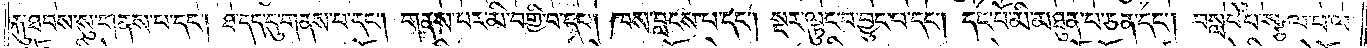རྐུ་ཐབས་སུ་གནས་པ་དང༌། ཐ་དད་དུ་གནས་པ་དང༌། གནས་པར་མི་བགྱི་བ་དང༌། ཁས་བླངས་པ་དང༌། སྔར་ལྟུང་བ་བྱུང་བ་དང༌། དང་པོ་མི་མཐུན་པ་ཅན་དང༌། བསླབ་པ་སྩལ་པ་ལ་
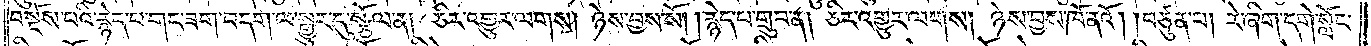བསྔོས་པའི་རྙེད་པ་གང་ཟག་བདག་ལ་སྒྱུར་དུ་སྩོལ་ན། ཅིར་འགྱུར་ལགས། ཉེས་བྱས་སོ། །རྙེད་པ་གྲུབ་ན། ཅིར་འགྱུར་ལགས། ཉེས་བྱས་ཁོ་ནའོ། །བཙུན་པ། རེ་ཞིག་དགེ་སློང་
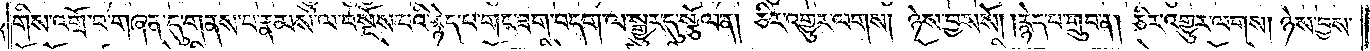གིས་འགྲོ་བ་གཞན་དུ་གནས་པ་རྣམས་ལ་བསྔོས་པའི་རྙེད་པ་གང་ཟག་བདག་ལ་སྒྱུར་དུ་སྩོལ་ན། ཅིར་འགྱུར་ལགས། ཉེས་བྱས་སོ། །རྙེད་པ་གྲུབ་ན། ཅིར་འགྱུར་ལགས། ཉེས་བྱས་
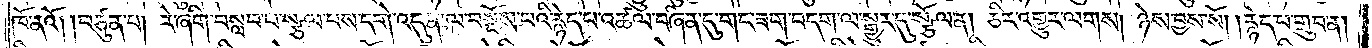ཁོ་ནའོ། །བཙུན་པ། རེ་ཞིག་བསླབ་པ་སྩལ་པས་དགེ་འདུན་ལ་བསྔོས་པའི་རྙེད་པ་འཚལ་བཞིན་དུ་གང་ཟག་བདག་ལ་སྒྱུར་དུ་སྩོལ་ན། ཅིར་འགྱུར་ལགས། ཉེས་བྱས་སོ། །རྙེད་པ་གྲུབ་ན།
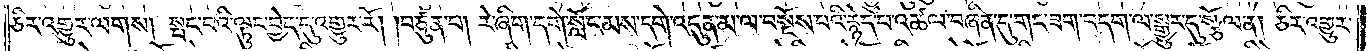ཅིར་འགྱུར་ལགས། སྤང་བའི་ལྟུང་བྱེད་དུ་འགྱུར་རོ། །བཙུན་པ། རེ་ཞིག་དགེ་སློང་མས་དགེ་འདུན་མ་ལ་བསྔོས་པའི་རྙེད་པ་འཚལ་བཞིན་དུ་གང་ཟག་བདག་ལ་སྒྱུར་དུ་སྩོལ་ན། ཅིར་འགྱུར་
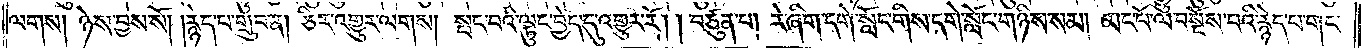ལགས། ཉེས་བྱས་སོ། །རྙེད་པ་གྲུབ་ན། ཅིར་འགྱུར་ལགས། སྤང་བའི་ལྟུང་བྱེད་དུ་འགྱུར་རོ། །བཙུན་པ། རེ་ཞིག་དགེ་སློང་གིས་དགེ་སློང་གཉིས་སམ། མང་པོ་ལ་བསྔོས་པའི་རྙེད་པ་གང་
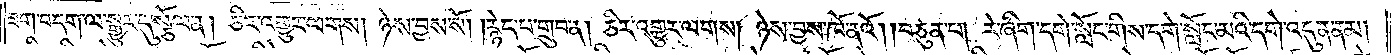ཟག་བདག་ལ་སྒྱུར་དུ་སྩོལ་ན། ཅིར་འགྱུར་ལགས། ཉེས་བྱས་སོ། །རྙེད་པ་གྲུབ་ན། ཅིར་འགྱུར་ལགས། ཉེས་བྱས་ཁོ་ནའོ། །བཙུན་པ། རེ་ཞིག་དགེ་སློང་གིས་དགེ་སློང་མའི་དགེ་འདུན་ནམ།
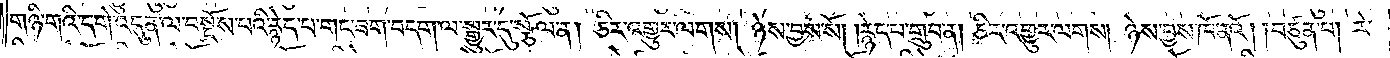གཉི་གའི་དགེ་འདུན་ལ་བསྔོས་པའི་རྙེད་པ་གང་ཟག་བདག་ལ་སྒྱུར་དུ་སྩོལ་ན། ཅིར་འགྱུར་ལགས། ཉེས་བྱས་སོ། །རྙེད་པ་གྲུབ་ན། ཅིར་འགྱུར་ལགས། ཉེས་བྱས་ཁོ་ནའོ། །བཙུན་པ། རེ་
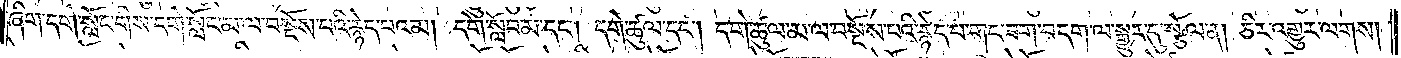ཞིག་དགེ་སློང་གིས་དགེ་སློང་མ་ལ་བསྔོས་པའི་རྙེད་པའམ། དགེ་སློབ་མ་དང༌། དགེ་ཚུལ་དང༌། དགེ་ཚུལ་མ་ལ་བསྔོས་པའི་རྙེད་པ་གང་ཟག་བདག་ལ་སྒྱུར་དུ་སྩོལ་ན། ཅིར་འགྱུར་ལགས།
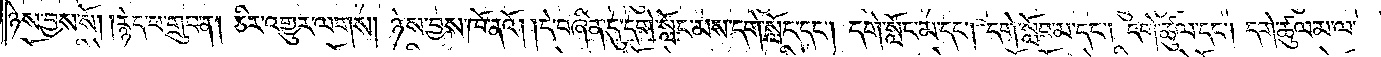ཉེས་བྱས་སོ། །རྙེད་པ་གྲུབ་ན། ཅིར་འགྱུར་ལགས། ཉེས་བྱས་ཁོ་ནའོ། །དེ་བཞིན་དུ་དགེ་སློང་མས་དགེ་སློང་དང༌། དགེ་སློང་མ་དང༌། དགེ་སློབ་མ་དང༌། དགེ་ཚུལ་དང༌། དགེ་ཚུལ་མ་ལ་
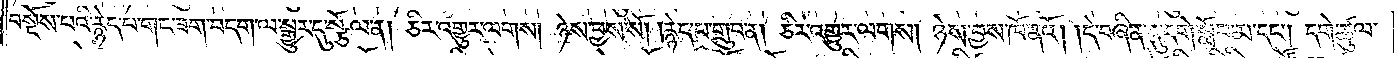བསྔོས་པའི་རྙེད་པ་གང་ཟག་བདག་ལ་སྒྱུར་དུ་སྩོལ་ན། ཅིར་འགྱུར་ལགས། ཉེས་བྱས་སོ། །རྙེད་པ་གྲུབ་ན། ཅིར་འགྱུར་ལགས། ཉེས་བྱས་ཁོ་ནའོ། །དེ་བཞིན་དུ་དགེ་སློབ་མ་དང༌། དགེ་ཚུལ་
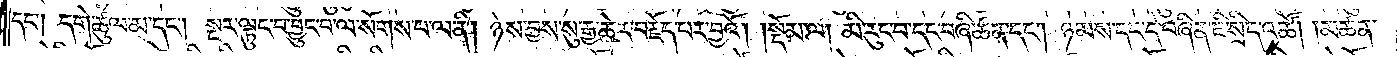དང༌། དགེ་ཚུལ་མ་དང༌། སྔར་ལྟུང་བ་བྱུང་བ་ལ་སོགས་པ་ལ་ནི། ཉེས་བྱས་སུ་རྒྱ་ཆེར་བརྗོད་པར་བྱའོ།    །སྡོམ་ལ། མི་རུང་བ་དང༌བཞི་ཚན་དང༌། ཉམས་དང་དེ་བཞིན་ཇི་སྲིད་འཚོ། །མཚན་
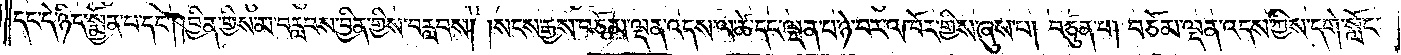དང་དེ་ཉིད་སྨྱོན་པ་དང༌། །བྱིན་གྱིས་མ་བརླབས་བྱིན་གྱིས་བརླབས། །སངས་རྒྱས་བཅོམ་ལྡན་འདས་ལ་ཚེ་དང་ལྡན་པ་ཉེ་བར་འཁོར་གྱིས་ཞུས་པ། བཙུན་པ། བཅོམ་ལྡན་འདས་ཀྱིས་དགེ་སློང་
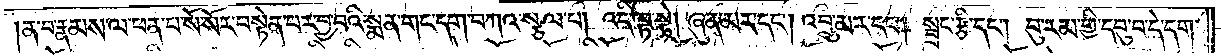།ན་བ་རྣམས་ལ་ཕན་པ་སོ་སོར་བསྟེན་པར་བྱ་བའི་སྨན་གང་དག་བཀའ་སྩལ་པ། འདི་ལྟ་སྟེ། ཞུན་མར་དང༌། འབྲུ་མར་དང༌། སྦྲང་རྩི་དང༌། བུ་རམ་གྱི་དབུ་བ་དེ་དག་
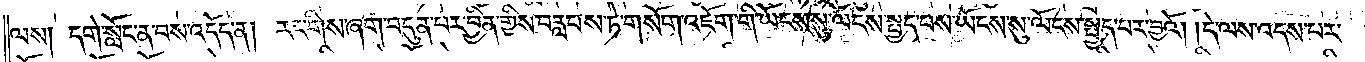ལས། དགེ་སློང་ན་བས་འདོད་ན། རང་གིས་ཞག་བདུན་པར་བྱིན་གྱིས་བརླབས་ཏེ་གསོག་འཇོག་གི་ཡོངས་སུ་ལོངས་སྤྱད་པས་ཡོངས་སུ་ལོངས་སྤྱད་པར་བྱའོ། །དེ་ལས་འདས་པར་
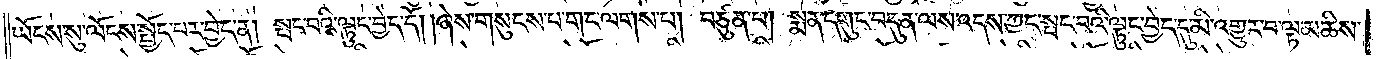ཡོངས་སུ་ལོངས་སྤྱོད་པར་བྱེད་ན། སྤང་བའི་ལྟུང་བྱེད་དོ། །ཞེས་གསུངས་པ་གང་ལགས་པ། བཙུན་པ། སྨན་དགུང་བདུན་ལས་འདས་ཀྱང་སྤང་བའི་ལྟུང་བྱེད་དུ་མི་འགྱུར་བ་ལྟ་མཆིས་
